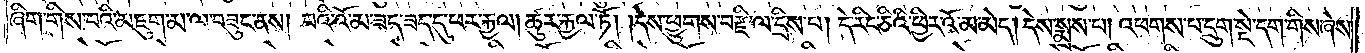ཞིག་གིས་བའི་མཇུག་མ་ལ་བཟུང་ནས། བའི་འོ་མ་ཟད་ཟད་དུ་ཕར་རྐྱལ། ཚུར་རྐྱལ་ཏོ། །དེས་ཕྱུགས་བརྫི་ལ་དྲིས་པ། དེ་རིང་ཅིའི་ཕྱིར་འོ་མ་མེད། དེས་སྨྲས་པ། འཕགས་པ་དྲུག་སྡེ་དག་གིས་ཞེས་
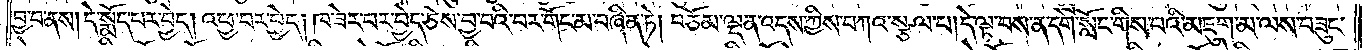བྱ་བ་ནས། དེ་སྨོད་པར་བྱེད། འཕྱ་བར་བྱེད། ཁ་ཟེར་བར་བྱེད་ཅེས་བྱ་བའི་བར་གོང་མ་བཞིན་ཏེ། བཅོམ་ལྡན་འདས་ཀྱིས་བཀའ་སྩལ་པ། དེ་ལྟ་བས་ན་དགེ་སློང་གིས་བའི་མཇུག་མ་ལས་བཟུང་
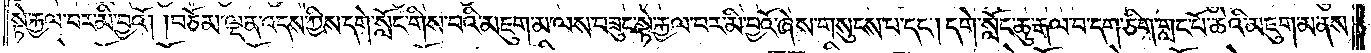སྟེ་རྐྱལ་བར་མི་བྱའོ། །བཅོམ་ལྡན་འདས་ཀྱིས་དགེ་སློང་གིས་བའི་མཇུག་མ་ལས་བཟུང་སྟེ་རྐྱལ་བར་མི་བྱའོ་ཞེས་གསུངས་པ་དང༌། དགེ་སློང་ཆུ་རྒལ་བ་དག་ཅིག་གླང་པོ་ཆེའི་མཇུག་མ་ནས་
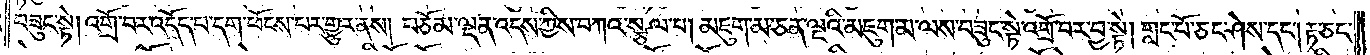བཟུང་སྟེ། འགྲོ་བར་འདོད་པ་དག་ཕོངས་པར་གྱུར་ནས། བཅོམ་ལྡན་འདས་ཀྱིས་བཀའ་སྩལ་པ། མཇུག་མ་ཅན་ལྔའི་མཇུག་མ་ལས་བཟུང་སྟེ་འགྲོ་བར་བྱ་སྟེ། གླང་པོ་ཅང་ཤེས་དང༌། རྟ་ཅང་
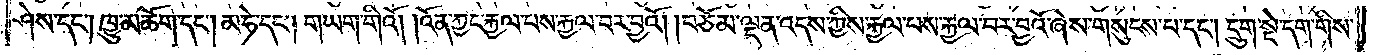ཤེས་དང༌། ཁྱུ་མཆོག་དང༌། མ་ཧེ་དང༌། གཡག་གིའོ། །འོན་ཀྱང་རྐྱལ་པས་རྐྱལ་བར་བྱའོ། །བཅོམ་ལྡན་འདས་ཀྱིས་རྐྱལ་བས་རྐྱལ་བར་བྱའོ་ཞེས་གསུངས་པ་དང༌། དྲུག་སྡེ་དག་གིས་
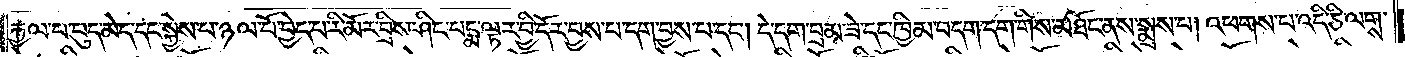རྒྱལ་པ་བུད་མེད་དང་སྐྱེས་པ་ཉལ་པོ་བྱེད་པ་རི་མོར་བྲིས་ཤིང་པདྨ་ལྟར་བྱི་དོར་བྱས་པ་དག་བྱས་པ་དང༌། དེ་དག་བྲམ་ཟེ་དང་ཁྱིམ་བདག་དག་གིས་མཐོང་ནས་སྨྲས་པ། འཕགས་པ་འདི་ཅི་ལགས་
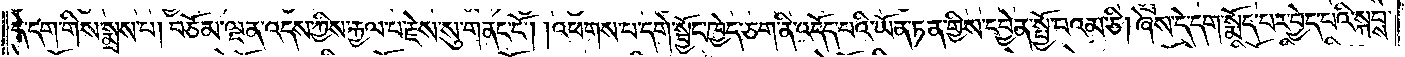དེ་དག་གིས་སྨྲས་པ། བཅོམ་ལྡན་འདས་ཀྱིས་རྐྱལ་པ་རྗེས་སུ་གནང་ངོ༌། །འཕགས་པ་དགེ་སྦྱོང་ཁྱེད་ཅག་ནི་འདོད་པའི་ཡོན་ཏན་གྱིས་དབྱེན་སྤྱོ་བའམ་ཅི། ཞེས་དེ་དག་སྨོད་པར་བྱེད་པའི་སྐབས་
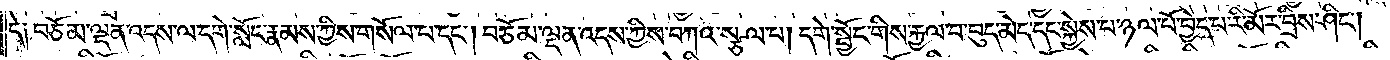དེ༑ བཅོམ་ལྡན་འདས་ལ་དགེ་སློང་རྣམས་ཀྱིས་གསོལ་པ་དང༌། བཅོམ་ལྡན་འདས་ཀྱིས་བཀའ་སྩལ་པ། དགེ་སྦྱོང་གིས་རྐྱལ་བ་བུད་མེད་དང་སྐྱེས་པ་ཉལ་པོ་བྱེད་པ་རི་མོར་བྲིས་ཤིང༌།
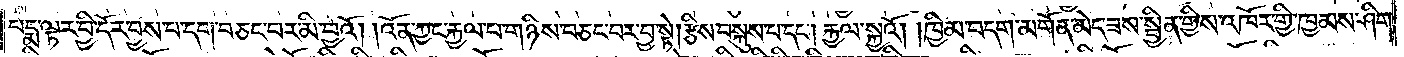པདྨ་ལྟར་བྱི་དོར་བྱས་པ་དག་བཅང་བར་མི་བྱའོ། །འོན་ཀྱང་རྐྱལ་པ་གཉིས་བཅང་བར་བྱ་སྟེ། རྩིས་བསྐུས་པ་དང༌། རྐྱལ་སྐྱའོ།    །ཁྱིམ་བདག་མགོན་མེད་ཟས་སྦྱིན་གྱིས་འཁོར་གྱི་ཁྱམས་ཤིག་
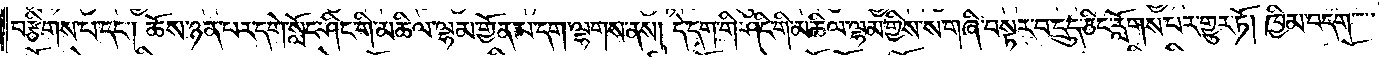བརྩིགས་པ་དང༌། ཆོས་ཉན་པར་དགེ་སློང་ཤིང་གི་མཆིལ་ལྷམ་གྱོན་པ་དག་ལྷགས་ནས། དེ་དག་གི་ཤིང་གི་མཆིལ་ལྷམ་གྱིས་ས་གཞི་བསྟར་བ་དྲུད་ཅིང་རློགས་པར་གྱུར་ཏོ། ཁྱིམ་བདག་
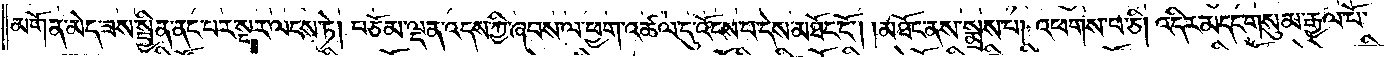མགོན་མེད་ཟས་སྦྱིན་ནང་པར་སྔར་ལངས་ཏེ། བཅོམ་ལྡན་འདས་ཀྱི་ཞབས་ལ་ཕྱག་འཚལ་དུ་འོངས་པ་དེས་མཐོང་ངོ༌། །མཐོང་ནས་སྨྲས་པ། འཕགས་པ་ཅི། འདིར་མདང་གསུམ་རྒྱལ་པོ་
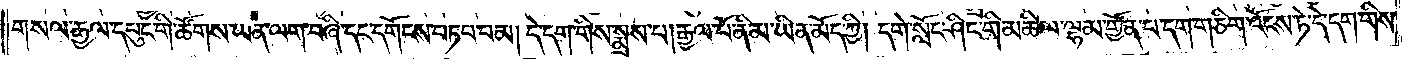གསལ་རྒྱལ་དཔུང་གི་ཚོགས་ཡན་ལག་བཞི་དང་དགོངས་བཏབ་བམ། དེ་དག་གིས་སྨྲས་པ། རྒྱལ་པོ་ནི་མ་ཡིན་མོད་ཀྱི། དགེ་སློང་ཤིང་གི་མཆིལ་ལྷམ་གྱོན་པ་དག་གཅིག་འོངས་ཏེ་དེ་དག་གིས་
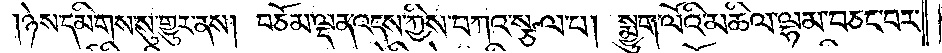ཉེས་དམིགས་སུ་གྱུར་ནས། བཅོམ་ལྡན་འདས་ཀྱིས་བཀའ་སྩལ་པ། སྨྱུག་ལོའི་མཆིལ་ལྷམ་བཅང་བར་
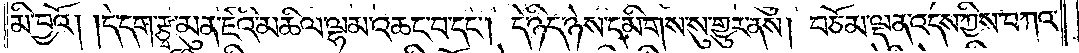མི་བྱའོ། །དེ་དག་རྩྭ་མུན་ཛའི་མཆིལ་ལྷམ་འཆང་བ་དང༌། དེ་ཉིད་ཉེས་དམིགས་སུ་གྱུར་ནས། བཅོམ་ལྡན་འདས་ཀྱིས་བཀའ་
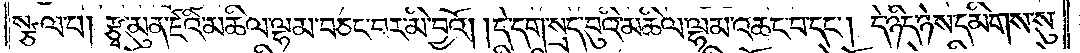སྩལ་པ། རྩྭ་མུན་ཛའི་མཆིལ་ལྷམ་བཅང་བར་མི་བྱའོ། །དེ་དག་སྲད་བུའི་མཆིལ་ལྷམ་འཆང་བ་དང༌། དེ་ཉིད་ཉེས་དམིགས་སུ་
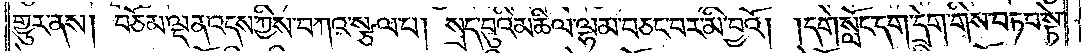གྱུར་ནས། བཅོམ་ལྡན་འདས་ཀྱིས་བཀའ་སྩལ་པ། སྲད་བུའི་མཆིལ་ལྷམ་བཅང་བར་མི་བྱའོ། །དགེ་སློང་དག་དྲེག་གིས་བཏབ་སྟེ་
